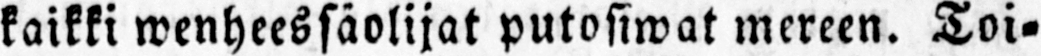kaikki wenheessäolijat putosiwat mereen. Toi-
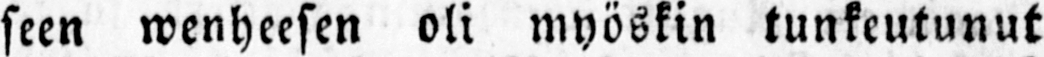seen wenheesen oli myöskin tunkeutunut
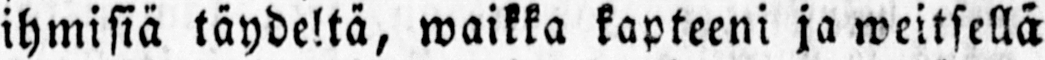ihmisiä täydeltä, waikka kapteeni ja weitsellä
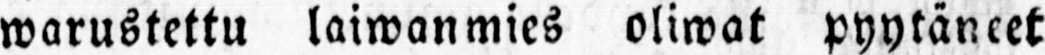warustettu laiwanmies oliwat pyytäneet
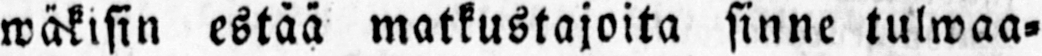wäkisin estää matkustajoita sinne tulwaa-
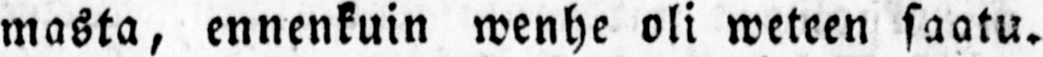masta, ennenkuin wenhe oli weteen saatu.
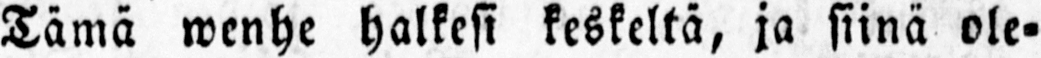Tämä wenhe halkesi keskeltä, ja siinä ole-
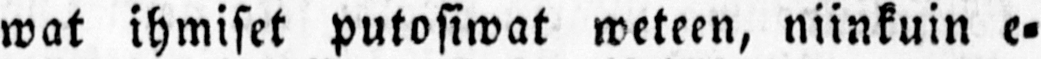wat ihmiset putosiwat meteen, niinkuin e-
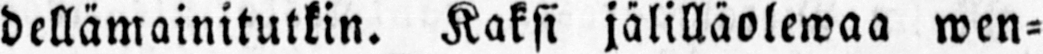dellämainitutkin. Kaksi jälilläolewaa wen-
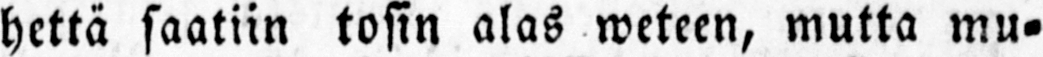hettä saatiin tosin alas weteen, mutta mu-
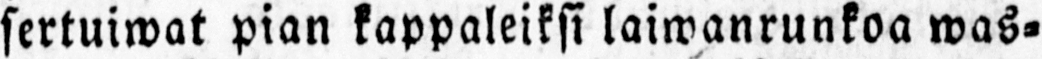sertuiwat pian kappaleiksi laiwanrunkoa was-
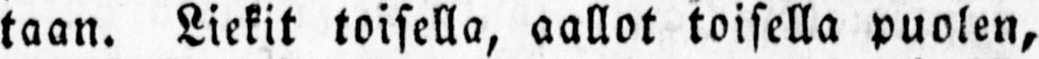taan. Liekit toisella, aallot toisella puolen,
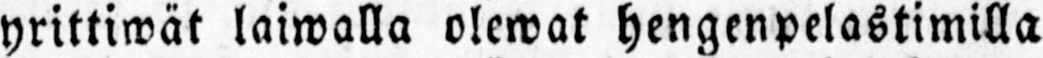yrittiwät laiwalla olewat hengenpelastimilla
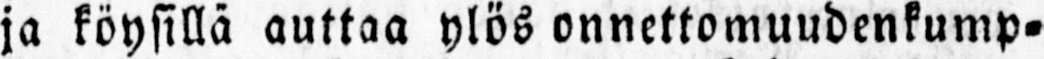ja köysillä auttaa ylös onnettomuudenkump-
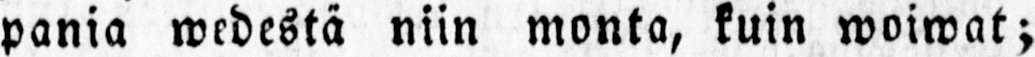pania medestä niin monta, kuin woiwat;
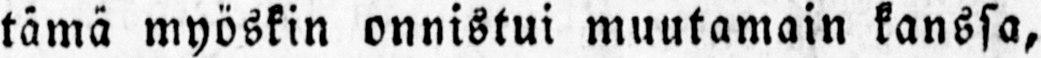tämä myöskin onnistui muutamain kanssa,
